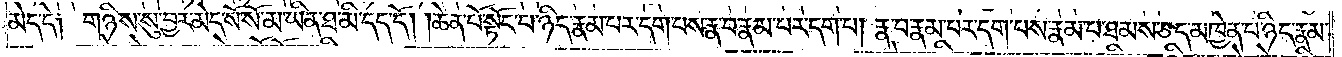མེད་དེ༑ གཉིས་སུ་བྱར་མེད་སོ་སོ་མ་ཡིན་ཐ་མི་དད་དོ། །ཆེན་པོ་སྟོང་པ་ཉིད་རྣམ་པར་དག་པས་རྣ་བ་རྣམ་པར་དག་པ། རྣ་བ་རྣམ་པར་དག་པས་རྣམ་པ་ཐམས་ཅད་མཁྱེན་པ་ཉིད་རྣམ་
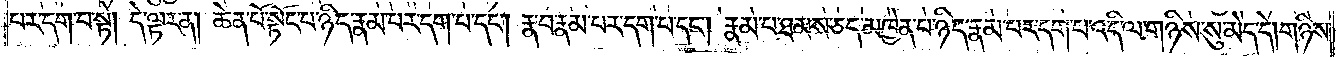པར་དག་པ་སྟེ། དེ་ལྟར་ན། ཆེན་པོ་སྟོང་པ་ཉིད་རྣམ་པར་དག་པ་དང༌། རྣ་བ་རྣམ་པར་དག་པ་དང༌། རྣམ་པ་ཐམས་ཅད་མཁྱེན་པ་ཉིད་རྣམ་པར་དག་པ་འདི་ལ་གཉིས་སུ་མེད་དེ། གཉིས་
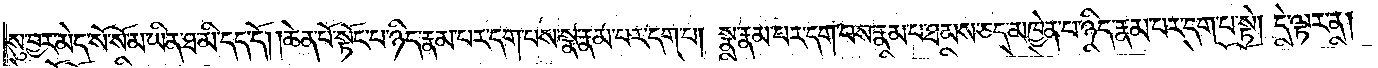སུ་བྱར་མེད་སོ་སོ་མ་ཡིན་ཐ་མི་དད་དོ། །ཆེན་པོ་སྟོང་པ་ཉིད་རྣམ་པར་དག་པས་སྣ་རྣམ་པར་དག་པ། སྣ་རྣམ་པར་དག་པས་རྣམ་པ་ཐམས་ཅད་མཁྱེན་པ་ཉིད་རྣམ་པར་དག་པ་སྟེ། དེ་ལྟར་ན།
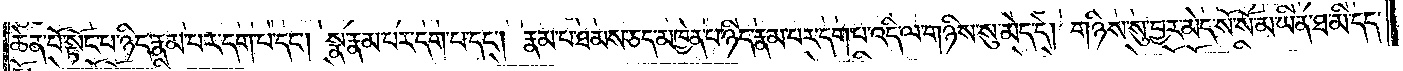ཆེན་པོ་སྟོང་པ་ཉིད་རྣམ་པར་དག་པ་དང༌། སྣ་རྣམ་པར་དག་པ་དང༌། རྣམ་པ་ཐམས་ཅད་མཁྱེན་པ་ཉིད་རྣམ་པར་དག་པ་འདི་ལ་གཉིས་སུ་མེད་དེ། གཉིས་སུ་བྱར་མེད་སོ་སོ་མ་ཡིན་ཐ་མི་དད་
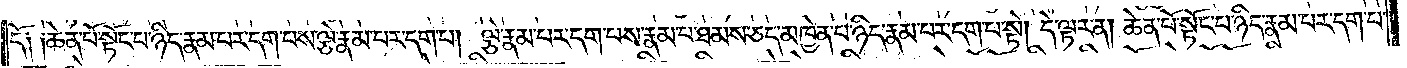དོ༑ ༑ཆེན་པོ་སྟོང་པ་ཉིད་རྣམ་པར་དག་པས་ལྕེ་རྣམ་པར་དག་པ། ལྕེ་རྣམ་པར་དག་པས་རྣམ་པ་ཐམས་ཅད་མཁྱེན་པ་ཉིད་རྣམ་པར་དག་པ་སྟེ། དེ་ལྟར་ན། ཆེན་པོ་སྟོང་པ་ཉིད་རྣམ་པར་དག་པ་
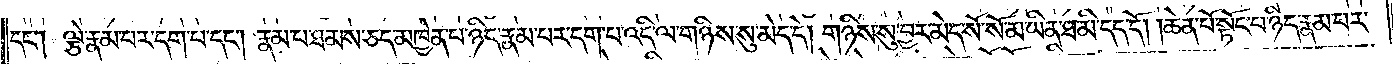དང༌། ལྕེ་རྣམ་པར་དག་པ་དང༌། རྣམ་པ་ཐམས་ཅད་མཁྱེན་པ་ཉིད་རྣམ་པར་དག་པ་འདི་ལ་གཉིས་སུ་མེད་དེ། གཉིས་སུ་བྱར་མེད་སོ་སོ་མ་ཡིན་ཐ་མི་དད་དོ། །ཆེན་པོ་སྟོང་པ་ཉིད་རྣམ་པར་
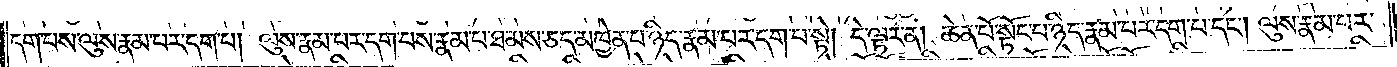དག་པས་ལུས་རྣམ་པར་དག་པ། ལུས་རྣམ་པར་དག་པས་རྣམ་པ་ཐམས་ཅད་མཁྱེན་པ་ཉིད་རྣམ་པར་དག་པ་སྟེ། དེ་ལྟར་ན། ཆེན་པོ་སྟོང་པ་ཉིད་རྣམ་པར་དག་པ་དང༌། ལུས་རྣམ་པར་
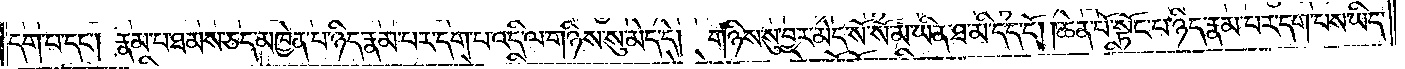དག་པ་དང༌། རྣམ་པ་ཐམས་ཅད་མཁྱེན་པ་ཉིད་རྣམ་པར་དག་པ་འདི་ལ་གཉིས་སུ་མེད་དེ། གཉིས་སུ་བྱར་མེད་སོ་སོ་མ་ཡིན་ཐ་མི་དད་དོ། །ཆེན་པོ་སྟོང་པ་ཉིད་རྣམ་པར་དག་པས་ཡིད་
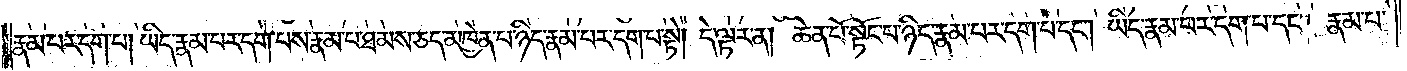རྣམ་པར་དག་པ། ཡིད་རྣམ་པར་དག་པས་རྣམ་པ་ཐམས་ཅད་མཁྱེན་པ་ཉིད་རྣམ་པར་དག་པ་སྟེ། དེ་ལྟར་ན། ཆེན་པོ་སྟོང་པ་ཉིད་རྣམ་པར་དག་པ་དང༌། ཡིད་རྣམ་པར་དག་པ་དང༌། རྣམ་པ་
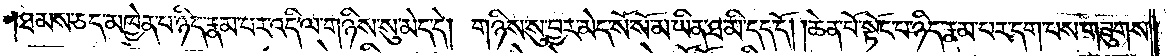ཐམས་ཅད་མཁྱེན་པ་ཉིད་རྣམ་པར་དག་པ་འདི་ལ་གཉིས་སུ་མེད་དེ། གཉིས་སུ་བྱར་མེད་སོ་སོ་མ་ཡིན་ཐ་མི་དད་དོ། །ཆེན་པོ་སྟོང་པ་ཉིད་རྣམ་པར་དག་པས་གཟུགས་
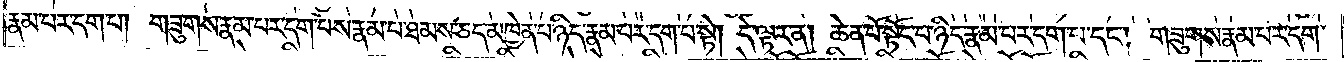རྣམ་པར་དག་པ། གཟུགས་རྣམ་པར་དག་པས་རྣམ་པ་ཐམས་ཅད་མཁྱེན་པ་ཉིད་རྣམ་པར་དག་པ་སྟེ། དེ་ལྟར་ན། ཆེན་པོ་སྟོང་པ་ཉིད་རྣམ་པར་དག་པ་དང༌། གཟུགས་རྣམ་པར་དག་
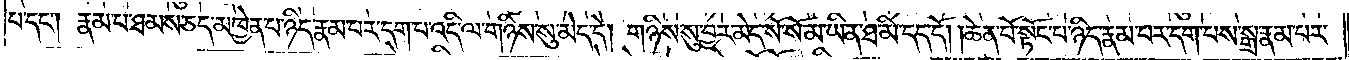པ་དང༌། རྣམ་པ་ཐམས་ཅད་མཁྱེན་པ་ཉིད་རྣམ་པར་དག་པ་འདི་ལ་གཉིས་སུ་མེད་དེ། གཉིས་སུ་བྱར་མེད་སོ་སོ་མ་ཡིན་ཐ་མི་དད་དོ། །ཆེན་པོ་སྟོང་པ་ཉིད་རྣམ་པར་དག་པས་སྒྲ་རྣམ་པར་
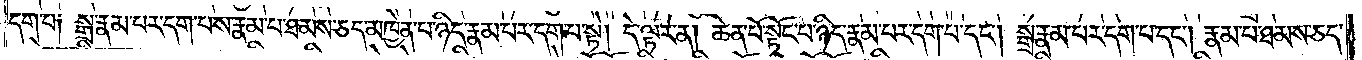དག་པ༑ སྒྲ་རྣམ་པར་དག་པས་རྣམ་པ་ཐམས་ཅད་མཁྱེན་པ་ཉིད་རྣམ་པར་དག་པ་སྟེ། དེ་ལྟར་ན། ཆེན་པོ་སྟོང་པ་ཉིད་རྣམ་པར་དག་པ་དང༌། སྒྲ་རྣམ་པར་དག་པ་དང༌། རྣམ་པ་ཐམས་ཅད་
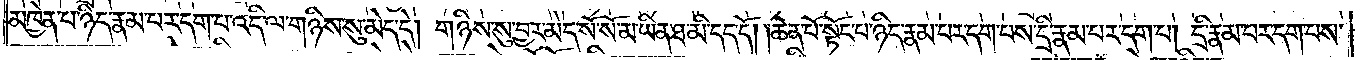མཁྱེན་པ་ཉིད་རྣམ་པར་དག་པ་འདི་ལ་གཉིས་སུ་མེད་དེ། གཉིས་སུ་བྱར་མེད་སོ་སོ་མ་ཡིན་ཐ་མི་དད་དོ། །ཆེན་པོ་སྟོང་པ་ཉིད་རྣམ་པར་དག་པས་དྲི་རྣམ་པར་དག་པ། དྲི་རྣམ་པར་དག་པས་
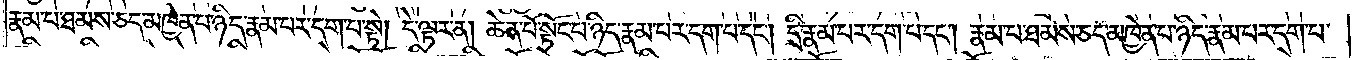རྣམ་པ་ཐམས་ཅད་མཁྱེན་པ་ཉིད་རྣམ་པར་དག་པ་སྟེ། དེ་ལྟར་ན། ཆེན་པོ་སྟོང་པ་ཉིད་རྣམ་པར་དག་པ་དང༌། དྲི་རྣམ་པར་དག་པ་དང༌། རྣམ་པ་ཐམས་ཅད་མཁྱེན་པ་ཉིད་རྣམ་པར་དག་པ་
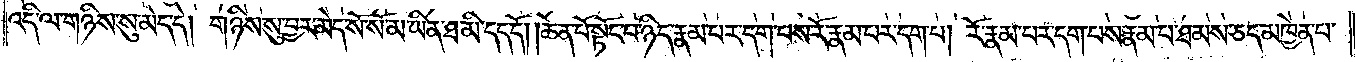འདི་ལ་གཉིས་སུ་མེད་དེ། གཉིས་སུ་བྱར་མེད་སོ་སོ་མ་ཡིན་ཐ་མི་དད་དོ། །ཆེན་པོ་སྟོང་པ་ཉིད་རྣམ་པར་དག་པས་རོ་རྣམ་པར་དག་པ། རོ་རྣམ་པར་དག་པས་རྣམ་པ་ཐམས་ཅད་མཁྱེན་པ་
